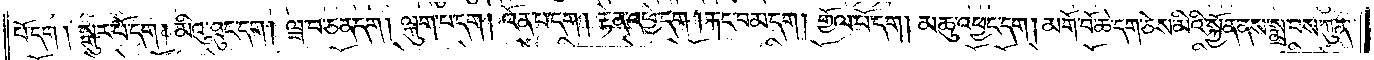པོ་དག། སྒུར་པོ་དག །མིའུ་ཐུང་དག། ལྦ་བ་ཅན་དག །ལྐུག་པ་དག །འོན་པ་དག། རྟེན་འཕྱེ་དག །རྐང་བམ་དག །གྱོལ་པོ་དག། མཆུ་འཕྱང་དག །མགོ་བོ་ཆེ་དག་ཅེས་མིའི་སྐྱོན་ནས་སྨྲ་བས་ཀུན་
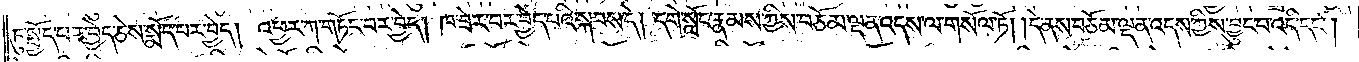ཏུ་སྤྱོད་པར་བྱེད་ཅེས་སྨོད་པར་བྱེད། འཕྱར་ཀ་གཏོང་བར་བྱེད། ཁ་ཟེར་བར་བྱེད་པའི་སྐབས་དེ། དགེ་སློང་རྣམས་ཀྱིས་བཅོམ་ལྡན་འདས་ལ་གསོལ་ཏོ། །དེ་ནས་བཅོམ་ལྡན་འདས་ཀྱིས་བྱུང་བ་འདི་དང༌།
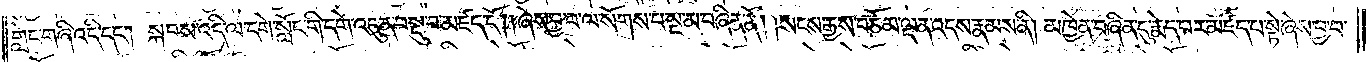གླེང་གཞི་འདི་དང༌། སྐབས་འདི་ལ་དགེ་སློང་གི་དགེ་འདུན་བསྡུ་བ་མཛད་དོ། །ཞེས་བྱ་བ་ལ་སོགས་པ་སྔ་མ་བཞིན་ནོ། །སངས་རྒྱས་བཅོམ་ལྡན་འདས་རྣམས་ནི། མཁྱེན་བཞིན་དུ་རྨེད་པར་མཛད་པ་སྟེ་ཞེས་བྱ་བ་
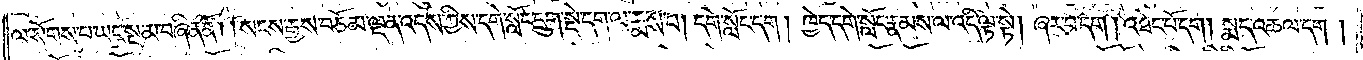ལ་སོགས་པ་ཡང་སྔ་མ་བཞིན་ནོ། །སངས་རྒྱས་བཅོམ་ལྡན་འདས་ཀྱིས་དགེ་སློང་དྲུག་སྡེ་དག་ལ་རྨས་པ། དགེ་སློང་དག། ཁྱེད་དགེ་སློང་རྣམས་ལ་འདི་ལྟ་སྟེ། ཞར་བ་དག། འཐེང་པོ་དག། སྨད་འཆལ་དག །
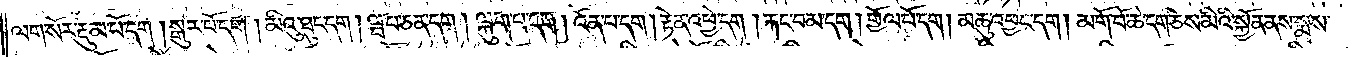ལག་སོར་རྡུམ་པོ་དག །སྒུར་པོ་དག །མིའུ་ཐུང་དག། ལྦ་བ་ཅན་དག། ལྐུག་པ་དག །འོན་པ་དག། རྟེན་འཕྱེ་དག །རྐང་བམ་དག། གྱོལ་པོ་དག །མཆུ་འཕྱང་དག། མགོ་བོ་ཆེ་དག་ཅེས་མིའི་སྐྱོན་ནས་སྨྲས་
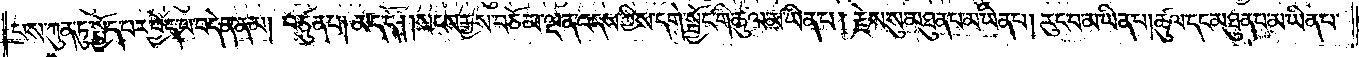པས་ཀུན་ཏུ་སྤྱོད་པར་བྱེད་པ་བདེན་ནམ། བཙུན་པ། མེད་དོ། །སངས་རྒྱས་བཅོམ་ལྡན་འདས་ཀྱིས་དགེ་སྦྱོང་གི་ཚུལ་མ་ཡིན་པ། རྗེས་སུ་མཐུན་པ་མ་ཡིན་པ། རུང་བ་མ་ཡིན་པ། ཚུལ་དང་མཐུན་པ་མ་ཡིན་པ་
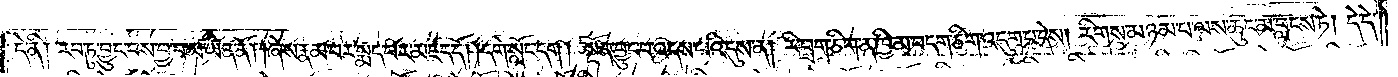དེ་ནི། རབ་ཏུ་བྱུང་བས་བྱ་བ་མ་ཡིན་ནོ། །ཞེས་རྣམ་པར་སྨད་པར་མཛད་དོ། །དགེ་སློང་དག། སྔོན་བྱུང་བ་འདས་པའི་དུས་ན། རི་བྲག་ཅིག་ན་ཁྱིམ་བདག་ཅིག་འདུག་པ་དེས། རིགས་མཉམ་པ་ལས་ཆུང་མ་བླངས་ཏེ། དེ་དེ་
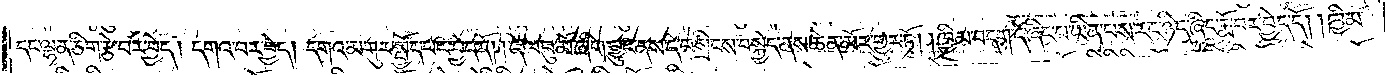དང་ལྷན་ཅིག་རྩེ་བར་བྱེད། དགའ་བར་བྱེད། དགའ་མགུར་སྤྱོད་པར་བྱེད་དོ། །དེ་ལ་བུ་མོ་ཞིག་བྱུང་ནས་དེ་བསྲིངས་བསྐྱེད་ནས་ཆེན་མོར་གྱུར་ཏོ། །ཁྱིམ་བདག་དེ་ཞིང་པ་ཡིན་པས་རང་ཉིད་ཞིང་རྨོ་བར་བྱེད་དོ། །ཁྱིམ་
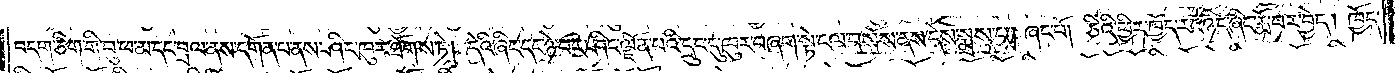བདག་ཅིག་གི་བུ་ཕ་མ་དང་བྲལ་ནས་དགོན་པ་ནས་ཤིང་ཁུར་ཐོགས་ཏེ། དེའི་ཞིང་དང་ཉེ་བར་ཤིང་ལྗོན་པའི་དྲུང་དུ་ཁུར་བཞག་སྟེ་ངལ་བསོས་ནས་དེས་སྨྲས་པ། ཞང་པོ། ཅིའི་ཕྱིར་ཁྱོད་རང་ཉིད་ཞིང་རྨོ་བར་བྱེད། ཁྱོད་
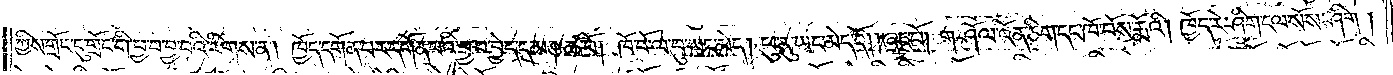ཀྱིས་གྲོང་དུ་གྲོང་གི་བྱ་བ་བྱ་བའི་རིགས་ན། ཁྱོད་དགོན་པར་དགོན་པའི་བྱ་བ་བྱེད་དམ། ཚ་བོ། ཁོ་བོ་ལ་བུ་ཡང་མེད། ཕུ་ནུ་ཡང་མེད་དོ། །ཞང་པོ། གཤོལ་འོན་ཅིག་དང་ཁོ་བོས་རྨོའི། ཁྱོད་རེ་ཤིག་ངལ་སོས་ཤིག །
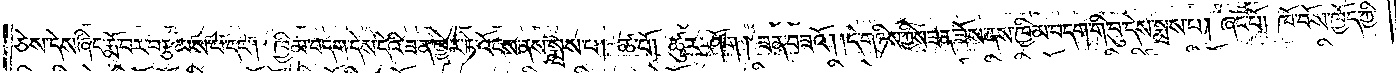ཅེས་དེས་ཞིང་རྨོ་བར་བརྩམས་པ་དང༌། ཁྱིམ་བདག་དེས་དེའི་ཟན་ཁྱེར་ཏེ་འོངས་ནས་སྨྲས་པ། ཚ་བོ། ཚུར་ཤོག། ཟན་བཟའོ། །དེ་གཉིས་ཀྱིས་ཟན་ཟོས་ནས་ཁྱིམ་བདག་གི་བུ་དེས་སྨྲས་པ། ཞང་པོ། ཁོ་བོས་ཁྱོད་ཀྱི་
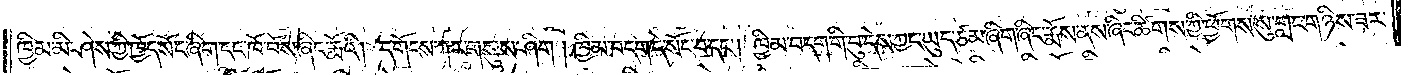ཁྱིམ་མི་ཤེས་ཀྱི་ཁྱོད་སོང་ཞིག་དང་ཁོ་བོས་ཞིང་རྨོའི། དགོངས་ཀར་གསུས་ཤིག །ཁྱིམ་བདག་དེ་སོང་བ་དང༌། ཁྱིམ་བདག་གི་བུ་དེས་ཀྱང་ཡུད་ཙམ་ཞིག་ཞིང་རྨོས་ནས་ཞིང་ཚིགས་ཀྱི་ཕྱོགས་སུ་གླང་གཉིས་ཟར་
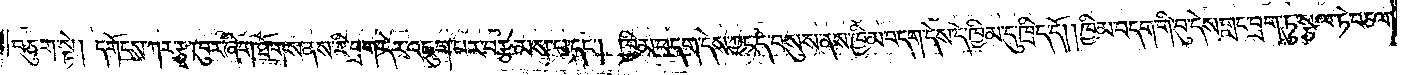བཅུག་སྟེ། དགོངས་ཀར་རྩྭ་ཁུར་ཞིག་ཐོགས་ནས་རི་བྲག་དེར་འཇུག་པར་བརྩམས་པ་དང༌། ཁྱིམ་བདག་དེས་ཀྱང་དེ་བསུས་ནས་ཁྱིམ་བདག་དེས་དེ་ཁྱིམ་དུ་ཁྲིད་དོ། །ཁྱིམ་བདག་གི་བུ་དེས་གླང་བྲག་ཏུ་སྩལ་ཏེ་བཅལ་
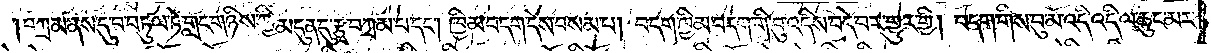བཀྲམ་ནས་དུ་བ་བཏུལ་ཏེ་གླང་གཉིས་ཀྱི་མདུན་དུ་རྩྭ་བཀྲམ་པ་དང༌། ཁྱིམ་བདག་དེས་བསམ་པ། བདག་ཁྱིམ་བདག་གི་བུ་འདིས་བདེ་བར་གྱུར་གྱི། བདག་གིས་བུ་མོ་འདི་འདི་ལ་ཆུང་མར་
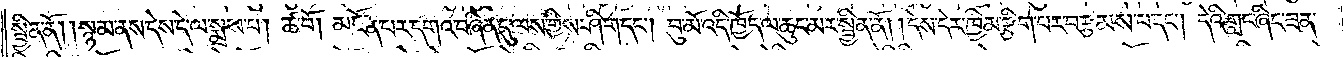སྦྱིན་ནོ། །སྙམ་ནས་དེས་དེ་ལ་སྨྲས་པ། ཚ་བོ། མངོན་པར་དགའ་བཞིན་དུ་ལས་གྱིས་ཤིག་དང༌། བུ་མོ་འདི་ཁྱོད་ལ་ཆུང་མར་སྦྱིན་ནོ། །དེས་དེར་ཁྱིམ་རྩིག་པར་བརྩམས་པ་དང༌། དེའི་གླང་ཞིང་ཟན་
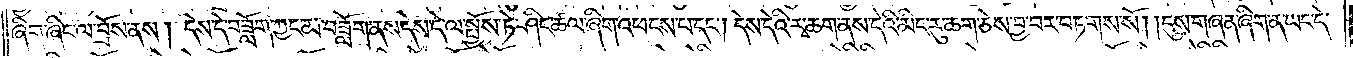ཞིག་ཞིང་ལ་བྲོས་ནས། དེས་དེ་བཟློག་ཀྱང་མ་བཟློག་ནས་དེས་དེ་ལ་སྤྱོས་ཏེ་ཤིང་ཚལ་ཞིག་འཕངས་པ་དང༌། དེས་དེའི་རྭ་ཆག་ནས་དེའི་མིང་རུ་ཆག་ཅེས་བྱ་བར་བཏགས་སོ། །དུས་གཞན་ཞིག་ན་ཡང་དེ་
